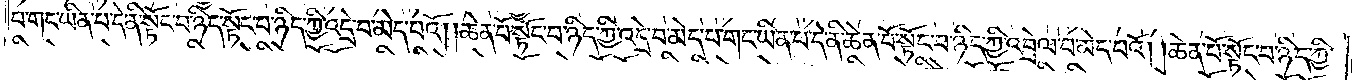པ་གང་ཡིན་པ་དེ་ནི་སྟོང་པ་ཉིད་སྟོང་པ་ཉིད་ཀྱི་འདྲེ་བ་མེད་པའོ། །ཆེན་པོ་སྟོང་པ་ཉིད་ཀྱི་འདྲེ་བ་མེད་པ་གང་ཡིན་པ་དེ་ནི་ཆེན་པོ་སྟོང་པ་ཉིད་ཀྱི་འབྲེལ་བ་མེད་པའོ། །ཆེན་པོ་སྟོང་པ་ཉིད་
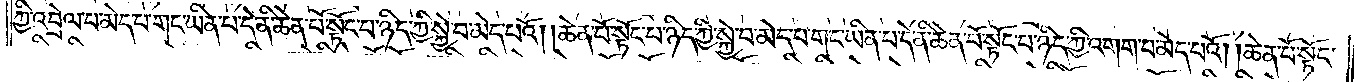ཀྱི་འབྲེལ་བ་མེད་པ་གང་ཡིན་པ་དེ་ནི་ཆེན་པོ་སྟོང་པ་ཉིད་ཀྱི་སྐྱེ་བ་མེད་པའོ། །ཆེན་པོ་སྟོང་པ་ཉིད་ཀྱི་སྐྱེ་བ་མེད་པ་གང་ཡིན་པ་དེ་ནི་ཆེན་པོ་སྟོང་པ་ཉིད་ཀྱི་འགག་པ་མེད་པའོ། །ཆེན་པོ་སྟོང་
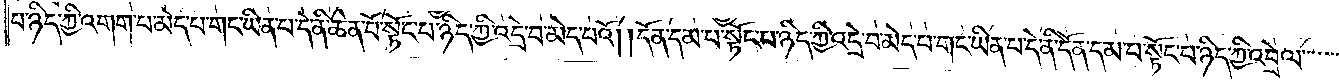པ་ཉིད་ཀྱི་འགག་པ་མེད་པ་གང་ཡིན་པ་དེ་ནི་ཆེན་པོ་སྟོང་པ་ཉིད་ཀྱི་འདྲེ་བ་མེད་པའོ། །དོན་དམ་པ་སྟོང་པ་ཉིད་ཀྱི་འདྲེ་བ་མེད་པ་གང་ཡིན་པ་དེ་ནི་དོན་དམ་པ་སྟོང་པ་ཉིད་ཀྱི་འབྲེལ་
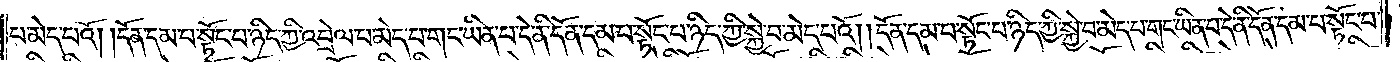བ་མེད་པའོ། །དོན་དམ་པ་སྟོང་པ་ཉིད་ཀྱི་འབྲེལ་བ་མེད་པ་གང་ཡིན་པ་དེ་ནི་དོན་དམ་པ་སྟོང་པ་ཉིད་ཀྱི་སྐྱེ་བ་མེད་པའོ། །དོན་དམ་པ་སྟོང་པ་ཉིད་ཀྱི་སྐྱེ་བ་མེད་པ་གང་ཡིན་པ་དེ་ནི་དོན་དམ་པ་སྟོང་པ་
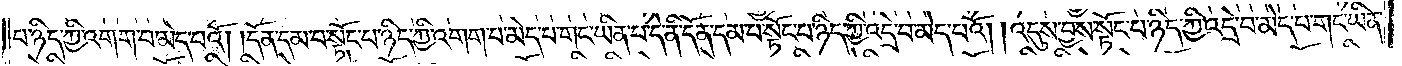པ་ཉིད་ཀྱི་འགག་པ་མེད་པའོ། །དོན་དམ་པ་སྟོང་པ་ཉིད་ཀྱི་འགག་པ་མེད་པ་གང་ཡིན་པ་དེ་ནི་དོན་དམ་པ་སྟོང་པ་ཉིད་ཀྱི་འདྲེ་བ་མེད་པའོ། །འདུས་བྱས་སྟོང་པ་ཉིད་ཀྱི་འདྲེ་བ་མེད་པ་གང་ཡིན་
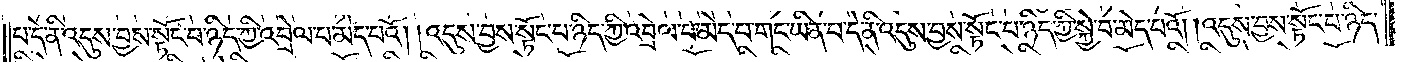པ་དེ་ནི་འདུས་བྱས་སྟོང་པ་ཉིད་ཀྱི་འབྲེལ་པ་མེད་པའོ། །འདུས་བྱས་སྟོང་པ་ཉིད་ཀྱི་འབྲེལ་པ་མེད་པ་གང་ཡིན་པ་དེ་ནི་འདུས་བྱས་སྟོང་པ་ཉིད་ཀྱི་སྐྱེ་བ་མེད་པའོ། །འདུས་བྱས་སྟོང་པ་ཉིད་
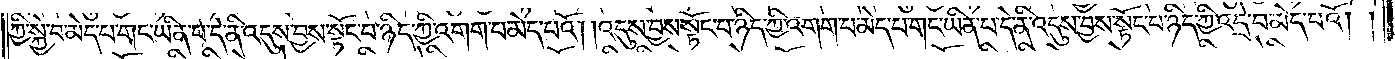ཀྱི་སྐྱེ་བ་མེད་པ་གང་ཡིན་པ་དེ་ནི་འདུས་བྱས་སྟོང་པ་ཉིད་ཀྱི་འགག་པ་མེད་པའོ། །འདུས་བྱས་སྟོང་པ་ཉིད་ཀྱི་འགག་པ་མེད་པ་གང་ཡིན་པ་དེ་ནི་འདུས་བྱས་སྟོང་པ་ཉིད་ཀྱི་འདྲེ་བ་མེད་པའོ། །
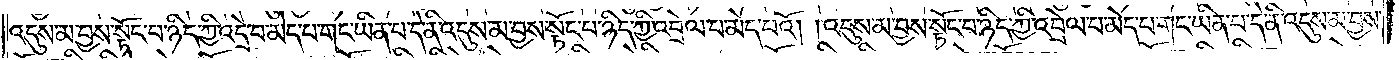འདུས་མ་བྱས་སྟོང་པ་ཉིད་ཀྱི་འདྲེ་བ་མེད་པ་གང་ཡིན་པ་དེ་ནི་འདུས་མ་བྱས་སྟོང་པ་ཉིད་ཀྱི་འབྲེལ་པ་མེད་པའོ། །འདུས་མ་བྱས་སྟོང་པ་ཉིད་ཀྱི་འབྲེལ་པ་མེད་པ་གང་ཡིན་པ་དེ་ནི་འདུས་མ་བྱས་
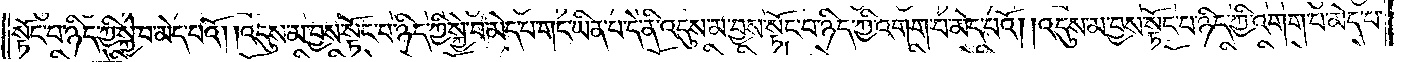སྟོང་པ་ཉིད་ཀྱི་སྐྱེ་བ་མེད་པའོ། །འདུས་མ་བྱས་སྟོང་པ་ཉིད་ཀྱི་སྐྱེ་བ་མེད་པ་གང་ཡིན་པ་དེ་ནི་འདུས་མ་བྱས་སྟོང་པ་ཉིད་ཀྱི་འགག་པ་མེད་པའོ། །འདུས་མ་བྱས་སྟོང་པ་ཉིད་ཀྱི་འགག་པ་མེད་པ་
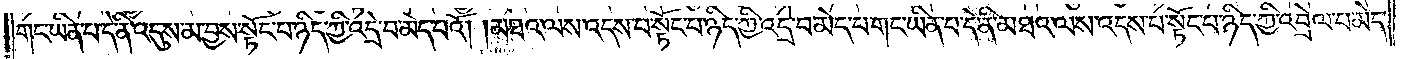གང་ཡིན་པ་དེ་ནི་འདུས་མ་བྱས་སྟོང་པ་ཉིད་ཀྱི་འདྲེ་བ་མེད་པའོ། །མཐའ་ལས་འདས་པ་སྟོང་པ་ཉིད་ཀྱི་འདྲེ་བ་མེད་པ་གང་ཡིན་པ་དེ་ནི་མཐའ་ལས་འདས་པ་སྟོང་པ་ཉིད་ཀྱི་འབྲེལ་བ་མེད་
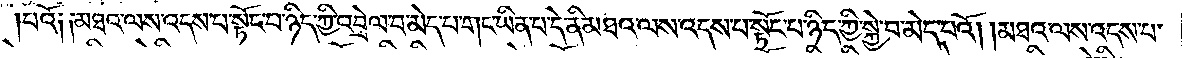པའོ། །མཐའ་ལས་འདས་པ་སྟོང་པ་ཉིད་ཀྱི་འབྲེལ་བ་མེད་པ་གང་ཡིན་པ་དེ་ནི་མཐའ་ལས་འདས་པ་སྟོང་པ་ཉིད་ཀྱི་སྐྱེ་བ་མེད་པའོ། །མཐའ་ལས་འདས་པ་
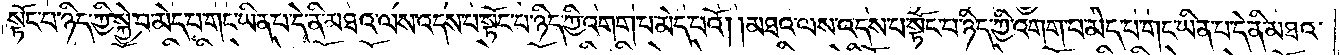སྟོང་པ་ཉིད་ཀྱི་སྐྱེ་བ་མེད་པ་གང་ཡིན་པ་དེ་ནི་མཐའ་ལས་འདས་པ་སྟོང་པ་ཉིད་ཀྱི་འགག་པ་མེད་པའོ། །མཐའ་ལས་འདས་པ་སྟོང་པ་ཉིད་ཀྱི་འགག་པ་མེད་པ་གང་ཡིན་པ་དེ་ནི་མཐའ་
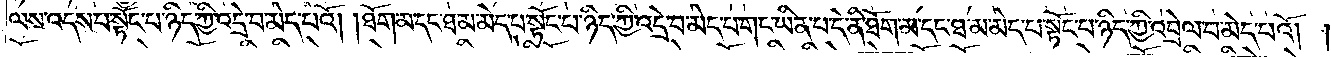ལས་འདས་པ་སྟོང་པ་ཉིད་ཀྱི་འདྲེ་བ་མེད་པའོ། །ཐོག་མ་དང་ཐ་མ་མེད་པ་སྟོང་པ་ཉིད་ཀྱི་འདྲེ་བ་མེད་པ་གང་ཡིན་པ་དེ་ནི་ཐོག་མ་དང་ཐ་མ་མེད་པ་སྟོང་པ་ཉིད་ཀྱི་འབྲེལ་བ་མེད་པའོ། །
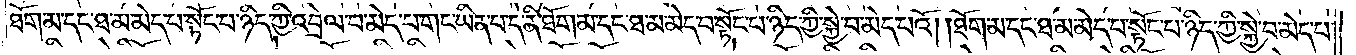ཐོག་མ་དང་ཐ་མ་མེད་པ་སྟོང་པ་ཉིད་ཀྱི་འབྲེལ་བ་མེད་པ་གང་ཡིན་པ་དེ་ནི་ཐོག་མ་དང་ཐ་མ་མེད་པ་སྟོང་པ་ཉིད་ཀྱི་སྐྱེ་བ་མེད་པའོ། །ཐོག་མ་དང་ཐ་མ་མེད་པ་སྟོང་པ་ཉིད་ཀྱི་སྐྱེ་བ་མེད་པ་
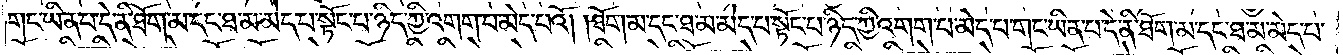གང་ཡིན་པ་དེ་ནི་ཐོག་མ་དང་ཐ་མ་མེད་པ་སྟོང་པ་ཉིད་ཀྱི་འགག་པ་མེད་པའོ། །ཐོག་མ་དང་ཐ་མ་མེད་པ་སྟོང་པ་ཉིད་ཀྱི་འགག་པ་མེད་པ་གང་ཡིན་པ་དེ་ནི་ཐོག་མ་དང་ཐ་མ་མེད་པ་
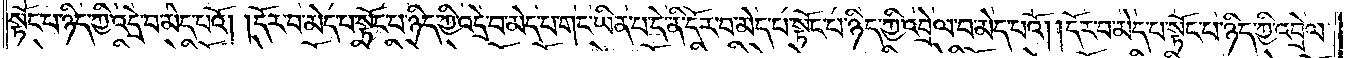སྟོང་པ་ཉིད་ཀྱི་འདྲེ་བ་མེད་པའོ། །དོར་བ་མེད་པ་སྟོང་པ་ཉིད་ཀྱི་འདྲེ་བ་མེད་པ་གང་ཡིན་པ་དེ་ནི་དོར་བ་མེད་པ་སྟོང་པ་ཉིད་ཀྱི་འབྲེལ་བ་མེད་པའོ། །དོར་བ་མེད་པ་སྟོང་པ་ཉིད་ཀྱི་འབྲེལ་
